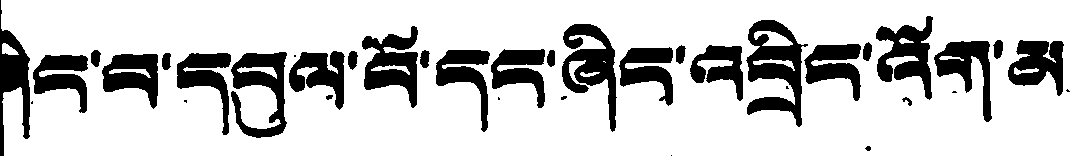ཞིང་ལ་དབུལ་ལོ་དང་ཞིང་འབྲིད་འོག་མ
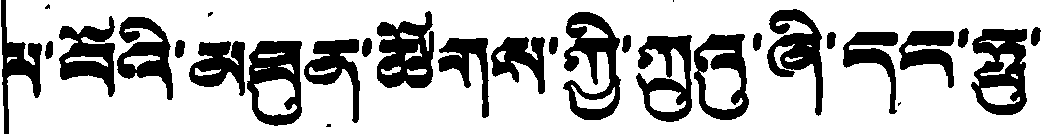ལ་བོའི་མཐུན་ཚོགས་ཀྱི་ཀྲུའུ་ཞི་དར་ཧྥུ་
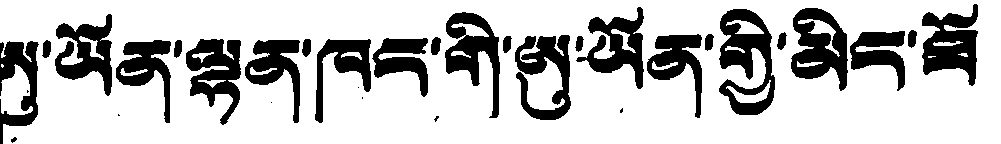ཨུ་ཡོན་ལྷན་ཁང་གི་ཨུ་ཡོན་གྱི་མིང་ཐོ
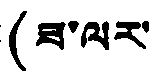(ཟ་ལར་
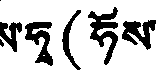ས་ཧྭ (ཧོས་
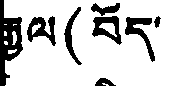རྒྱལ (བོད་
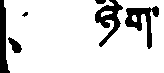、 ཉིག་
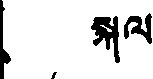、 སྐལ་
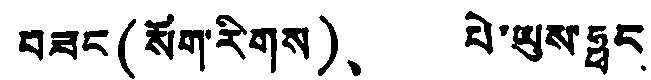བཟང (སོག་རིགས)、 པེ་ཡུས་ཧྥང
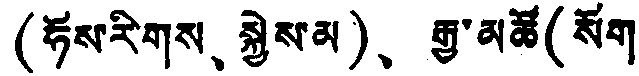(ཧོས་རིགས、 སྐྱེས་མ)、 རྒྱ་མཚོ(སོག་
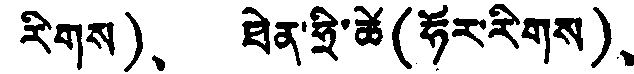རིགས)、 ཐེན་ཧྲི་ཚེ(ཧོར་རིགས)、
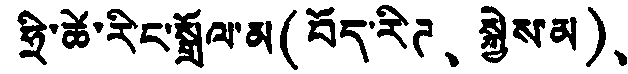ཧྲི་ཚེ་རིང་སྒྲོལ་མ(བོད་རིཊ、 སྐྱེས་མ)、
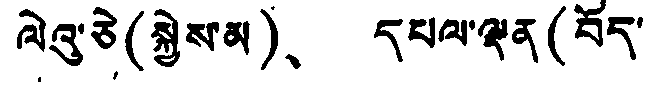ལེའུ་ཅེ(སྐྱེས་མ)、 དཔལ་ལྡན (བོད་
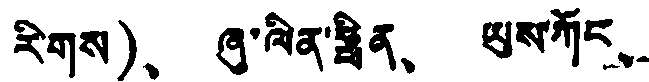རིགས)、 ཞུ་ལིན་ཧྥིན、 ལུས་ཀོང、
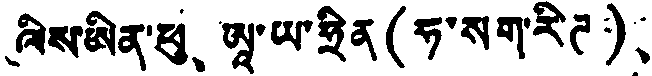ལིས་མིན་ཕུ、 ཨཱ་ཡ་ཧྲིན (ཧ་སག་རིཊ )、
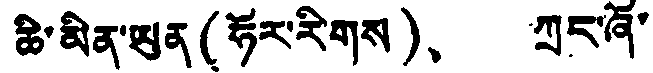ཆི་མིན་ཡུན (ཧོར་རིགས)、 ཀྲུང་ཞོ་
